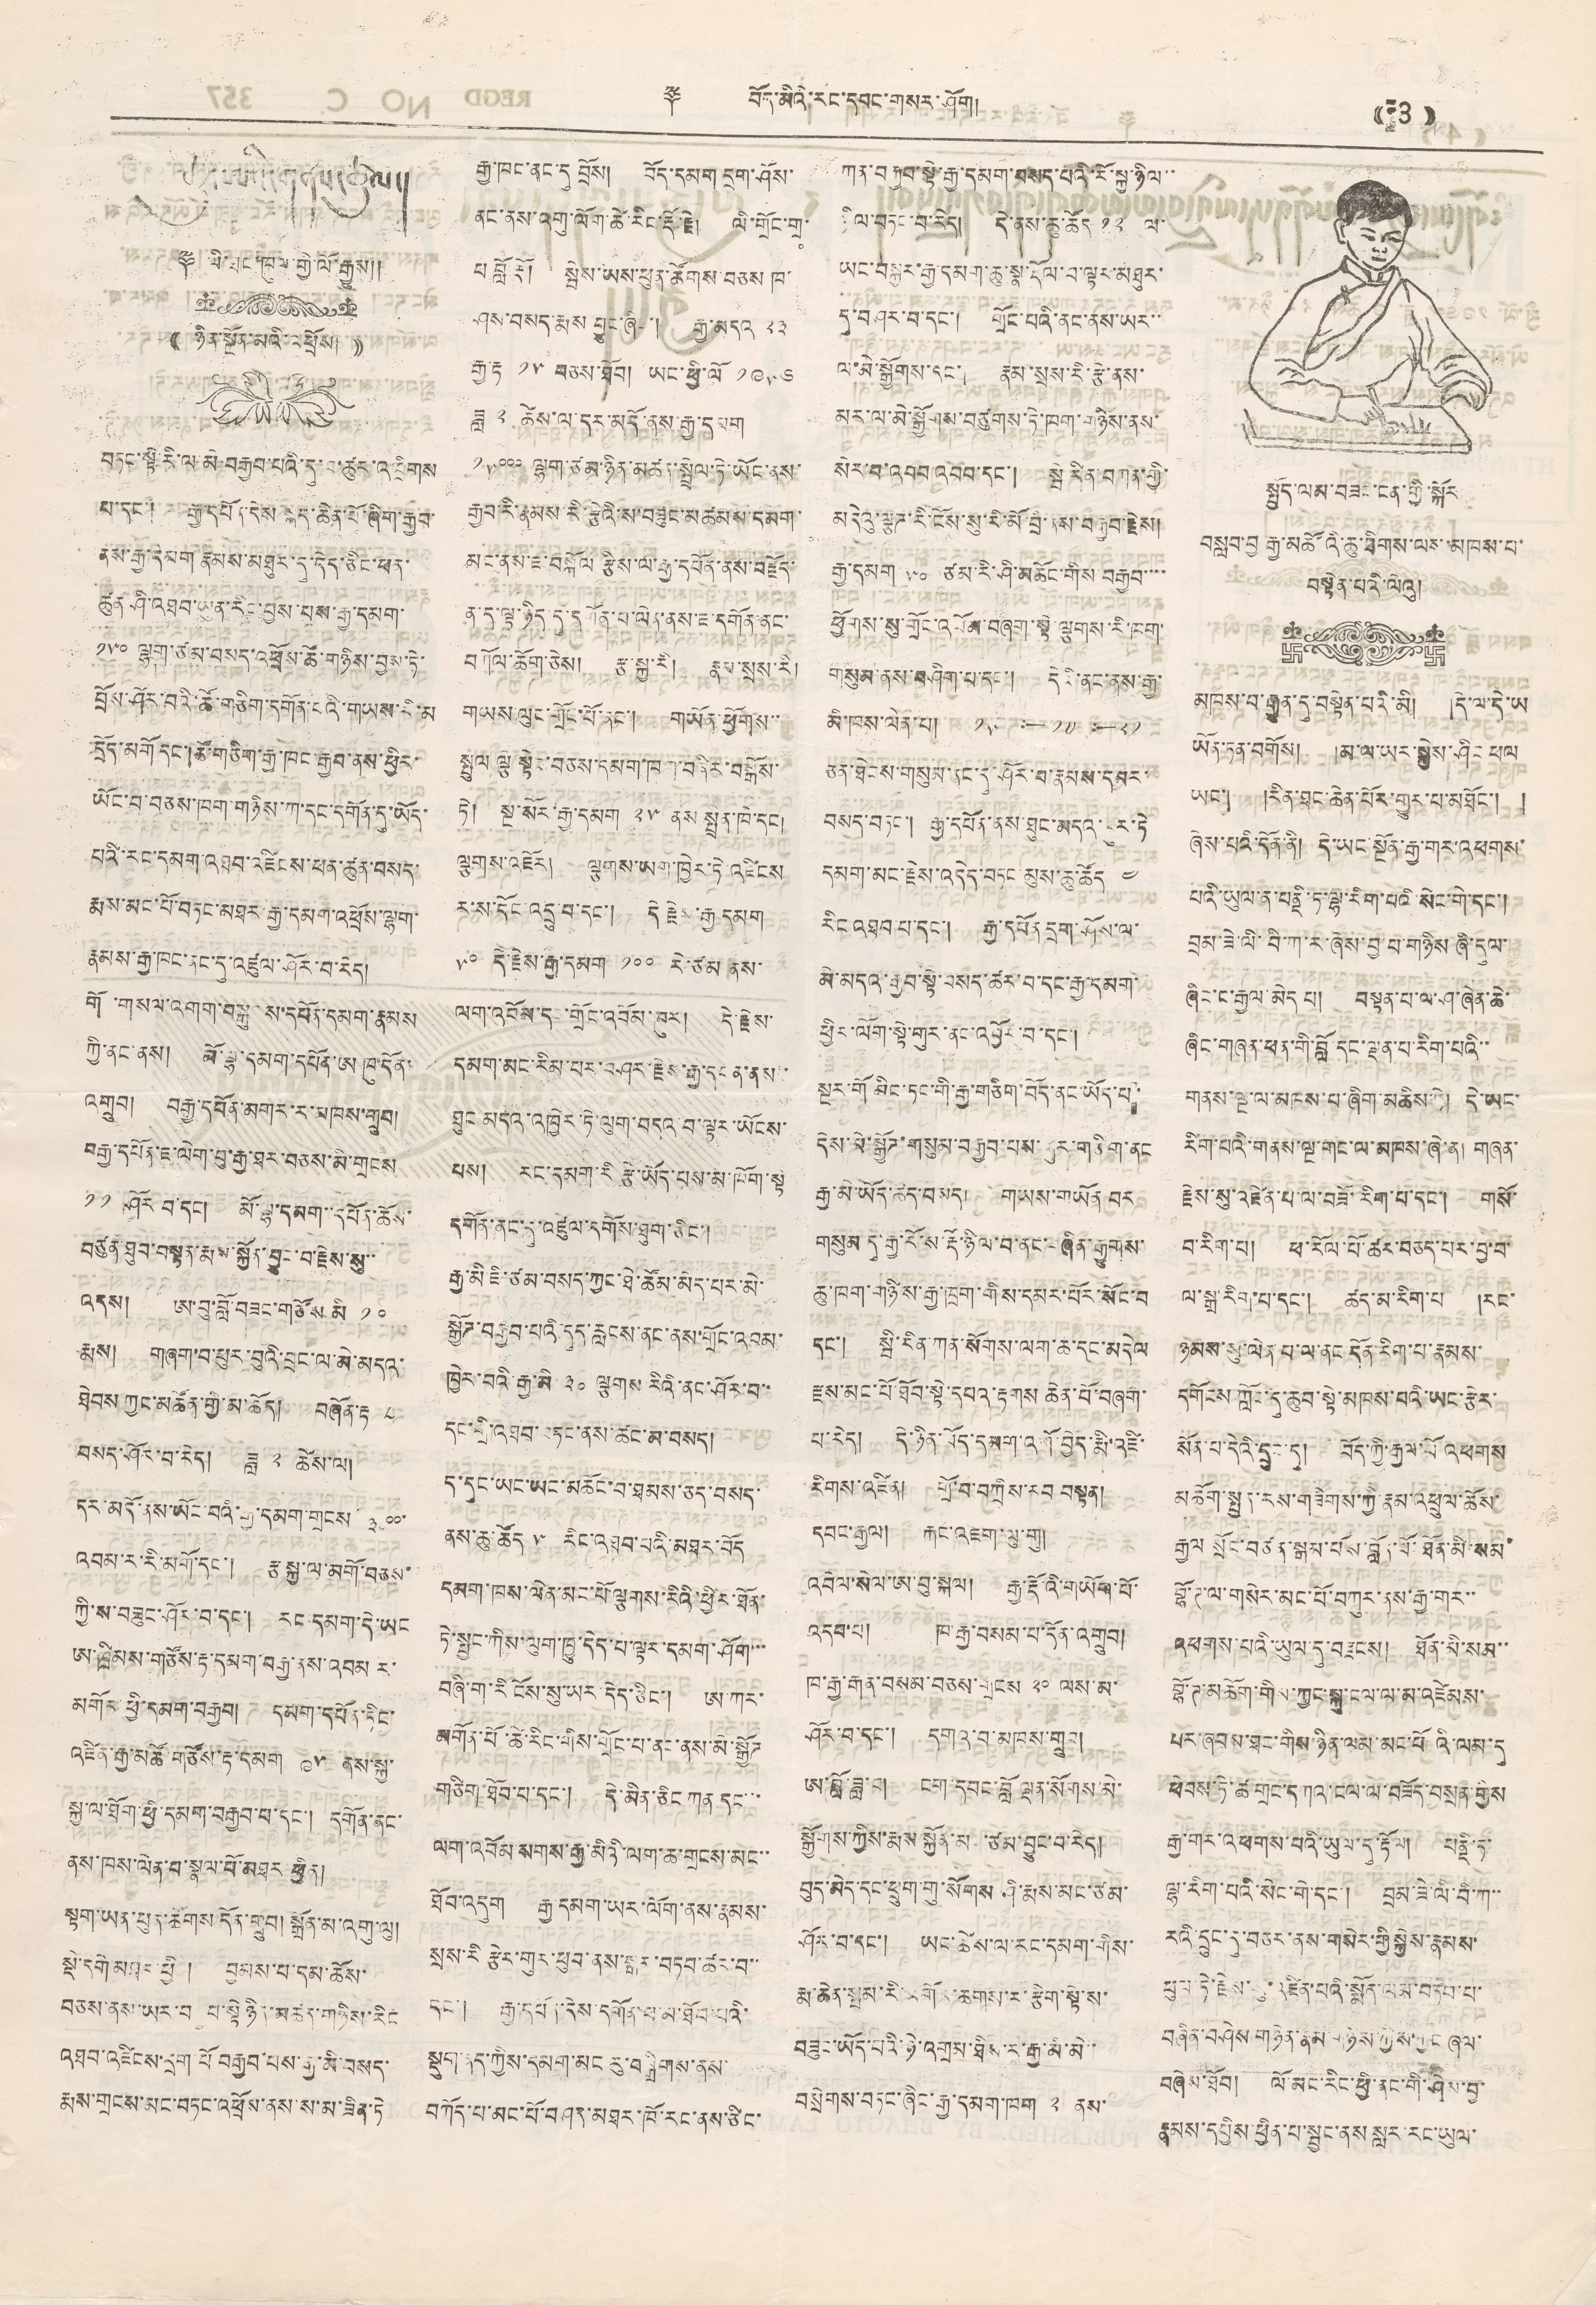༈ བོད་མིའི་རང་དབང་གསར་ཤོག།། (( 3 ))
ཆུ་ཨའི་གནས་ཚུལ།
༈ ལི་ཐང་ཁུལ་གྱི་ལོ་རྒྱུས།།
(( ཉིན་སྔོན་མའི་འཕྲོས། ))
བཏང་སྟེ་རི་ལ་མེ་བརྒྱབ་པའི་དུ་བ་ཚུར་འཁྲིགས
པ་དང་། རྒྱ་དཔོན་དེས་སྐད་ཆེན་པོ་ཞིག་རྒྱབ་
ནས་རྒྱ་དམག་རྣམས་མཐུར་དུ་དེད་ཅིང་ཕན་
ཚུན་ཤི་འཐབ་ཡུན་རིང་བྱས་པས་རྒྱ་དམག་
༡༥༠ ལྷག་ཙམ་བསད་འཕྲོས་ཚེ་གཉིས་བྱས་ཏེ་
བྲོས་ཤོར་བའི་ཚོ་གཅིག་དགོན་ངའི་གཡས་རི་མ
དྲོད་མགོ དང་།ཚོ་གཅིག་རྒྱ་ཁང་རྒྱབ་ནས་ཕྱིར་
ཡོང་བ་བཅས་ཁག་གཉིས་ཀ་དང་དགོན་དུ་ཡོད་
པའི་རང་དམག་འཐབ་འཛིངས་ཕན་ཚུན་བསད་
རྨས་མང་པོ་བཏང་མཐར་རྒྱ་དམག་འཕྲོས་ལྷག་
རྣམས་རྒྱ་ཁང་ནང་དུ་འཛུལ་ཤོར་བ་རེད།
གོ ་གསལ་འགག་བསྒུངས་དཔོན་དམག་རྣམས
ཀྱི་ནང་ནས། མོ་ལྷ་དམག་དཔོན་ཨ ཁུ་དོན་
འགྲུབ། བརྒྱ་དཔོན་མགར་ར་མཁས་གྲུབ།
བརྒྱ་དཔོན་ཇ་ལེག་བུ་རྒྱ་ཐར་བཅས་མི་གྲངས
༡༡ ཤོར བ་དང་། མོ་ལྷ་དམག་་དཔོན་ཆོས་
བཙུན་ཐུབ་བསྟན་རྨས་སྐྱོན་བྱུང་བ་རྗེས་སུ་་
འདས། ཨ་བུ་བློ་བཟང་གཙོས་མི ༡༠
རྨས། གཞག་བ་ཕུར་བུའི་བྲང་ལ་མེ་མདའ་
ཐེབས་ཀྱང་མཚོན་གྱི་མ་ཆོད། བཞོན་རྟ ༨
བསད་ཤོར་བ་རེད། ཟླ ༢ ཚེས་ལ།
དར་མདོ་ནས་ཡོང་བའི་རྒྱ་དམག་གྲངས་ ༣༠༠༠་
འབམ་ར་རི་མགོ་དང་། རྩ་སྐྱ་ལ་མགོ་བཅས་
ཀྱི་ས་བཟུང་ཤོར་བ་དང་། རང དམག་དེ་ཡང
ཨ་ཁྲིམས་གཙོས་རྟ་དམག་བརྒྱ་ནས་འབམ ར་
མགོར་ཕྱི་དམག་བརྒྱབ། དམག་དཔོན་ཏིང་
འཛིན་རྒྱ་མཚོ་གཙོས་རྟ་དམག ༩༥ ནས་སྐྱ་
སྐྱ་ལ་ཐོག་ཕྱི་དམག་བརྒྱབ་པ་དང་། དགོན་ནང་
ནས་ཁས་ལེན་བ་སྣལ་བོ་མཐར་ཕྱིན།
སྟག་ཡན་ཕུད་ཚོགས་དོན་གྲུབ། སྒྲོན་མ་འགུ་ལུ།
སྡེ་དགེ་མཐར་ཕྱི། བྱམས་པ་དམ་ཆོས་
བཅས་ནས་ཡར་བ བ་སྟེ་ཉིན་མཚན་གཉིས་རིང
འཐབ་འཛིངས་དྲག་པོ བརྒྱབ་པས་རྒྱ་མི་བསད་
རྨས་གྲངས་མང་བཏང་འཕྲོས་ནས་ས་མ་ཟིན་ཏེ
རྒྱ་ཁང་ནང་དུ བྲོས། བོད་དམག དྲག་ཤོས་
ནང་ནས་འགུ་ལོག་ཚེ་རིང་རྡོ་རྗེ། ལི་གྲོང་གྲ་
པ བློ རྡོ། སྦེས་ཡས་ཕུན་ཚོགས བཅས ཁ་
ཤས་བསད་རྨས བྱུང་ཞིང་། རྒྱ་མདའ་ ༢༣
རྒྱ་རྟ་ ༡༥ བཅས་ཐོབ། ཡང་ཕྱི་ལོ ༡༩༥༦
ཟླ ༢ ཚེས་ལ་དར་མདོ་ནས་རྒྱ་དམག
༡༥༠༠༠ ལྷག་ཙམ་ཉིན་མཚན་སྤྲེལ་ཏེ་ཡོང་ནས་
རྒྱབ་རི་རྣམས་རི་རྩེའི་ས་བཟུང་མཚམས་དམག་
མང་ནས་ཇ་བསྐོལ རྩིས་ལ་རྒྱ་དཔོན་ནས་བརྗོད་
ན་ད་ལྟ་ཉིད་དུ་དགོན་པ་ལེན་ནས་ཇ་དགོན་ནང་
བཀོལ་ཆོག་ཅེས། རྩ་སྐྱ་རི། རྣམ་སྲས་རི།
གཡས་ལུང་གྲོང་པོ་ནང། གྱོན་ཕྱོགས་་་
སྤུལ ལྕེ་སྟེར་བཅས་དམག་ཁག་བཞིར་བསྒོས་
ཏེ། སྔ་སོར་རྒྱ་དམག ༢༥ ནས་སྤྲིན་ཁེ་དང།
ལྕགས་འཇོར། ལྕགས་ཡག་ཁྱེར་ཏེ འཛིངས
ར་ས་དོང་འདྲུ་བ་དང་། དེ རྗེས་རྒྱ དམག
༥༠ དེ་རྗེས་རྒྱ་དམག ༡༠༠ རེ་ཙམ ནས་
ལག་འབོམ་དང་གྲོང་འབོམ་ཁུར། དེ་རྗེས་
དམག་མང་རིམ་པར་བཤར་རྗེས་རྒྱ་དང་ན་ནས་
ཐུང་མདའ་འཁྱེར་ཏེ་ལུག་བདའ བ་ལྟར་ཡོངས་
པས། རང་དམག་རི རྩེ་ཡོད་པས་མ་ཁོག་སྟེ
དགོན་ནང་དུ་འཛུལ་དགོས་ཐུག་ཅིང་།
རྒྱ་མི་ཇི་ཙམ་བསད་ཀྱང་ཐེ་ཚེམ་མེད་པར་མེ་
སྒྱོཌ་བརྒྱབ་པའི་དུད་རླངས་ནང་ནས་གྲོང་འབམ་
ཁྱེར་བའི་རྒྱ་མི ༣༠ ལྕགས་རིའི་ནང་ཤོར་བ་་
དང་གྲི་འཐབ་བཏང་ནས་ཚང་མ་བསད།
ད་དུང་ཡང་ཡང་མཆོང་བ་ཐམས་ཅད་བསད་
ནས་ཆུ་ཚོད་ ༥ རིང་འཐབ་པའི་མཐར་བོད
དམག་ཁས་ལེན་མང་པོ་ལྕགས་རིའི་ཕྱིར་ཐོན་
ཏེ་སྤྱང་ཀིས་ལུག་ཁྱུ་དེད་པ་ལྟར་དམག་ཤོག་་
བཞི་ག་རི ངོས་སུ་ཡར་དེད་ཅིང་། ཨ་ཀར་
མགོན་པོ་ཚེ་རིང་གིས་གྲོང་པ་ནང་ནས་མ་སྒྱོཌ
གཅིག་ཐོབ་པ་དང་། དེ་མིན་ཅིང ཀན་དང་་་
ལག་འབོམ་སགས་རྒྱ་མིའི་ལག་ཆ་གྲངས་མང་་
ཐོབ་འདུག རྒྱ་དམག་ཡར་ལོག་ནས་རྣམས་
སྲས་རི རྩེར་གུར་ཕུབ་ནས་སྒར་བཏབ་ཚར་བ་་
དང་། རྒྱ་དཔོན་དེས་དགོན་པ་མ་ཐོབ་པའི་
སྡུག་ནད་ཀྱིས་དམག་མང རུ་བསྒྲིགས་ནས་
བཀོད་པ་མང་པོ་བཤད་མཐར་ཁོ་རང་ནས་ཙིང་
ཀན་བརྒྱབ་སྟེ་རྒྱ་དམག་བསད་པའི་རོ་སྐྱ་ཉིལ་་
ཉིལ་བཏང་བ་རེད། དེ་ནས་ཆུ་ཚོད་ ༡༢ ལ་
ཡང་བསྐྱར་རྒྱ་དམག་ཆུ་སྣ་རྡོལ་བ་ལྟར་མཐུར་
དུ་བཤར་བ་དང་། གྲོང་པའི་ནང་ནས་ཡར་་
ལ་མེ་སྒྱོགས་དང་། རྣམ་སྲས་རི་རྩེ་ནས་
མར་ལ་མེ་སྒྱོགས་བཙུགས་ཏེ་ཁག་གཉིས་ནས་
སེར་བ་འབབ་འབབ་དང་། སྦེ་རིན་བཀན་གྱི་
མདེའུ་ལྕཌ་རི་ངོས་སུ་རི་མི་བྲི་ནས་བརྒྱབ་རྗེས།
རྒྱ་དམག ༥༠ ཙམ་རི་ཤི་མཆོང་གིས་བརྒྱབ་་་་
ཕྱོགས་སུ་གྲོང་འབོམ་བཞག་སྟེ་ལྕགས་རི་ཁག་
གསུམ་ནས་བཤིག་པ་དང་། དེའི་ནང་ནས་རྒྱ་
་མི་ཁས་ལེན་པ། ༡༥ :—༡༧ :— ༨༡
ཅན་ཐེངས་གསུམ་ནང་དུ་ཤོར་བ་རྣམས་དམར་
བསད་བཏང་། རྒྱ་དཔོན་ནས་ཐུང་མདའ་དུར་ཏེ་
དམག་མང་རྗེས་འདེད་བཏང་མུས་ཆུ་ཚོད་ ༤
རིང་འཐབ་པ་དང་། རྒྱ་དཔོན་དྲག་ཤོས་ལ་
མེ་མདའ་རྒྱབ་སྟེ་བསད་ཚར་བ་དང་རྒྱ་དམག་
ཕྱིར་ལོག་སྟེ་གུར་ནང་འབྱོར་བ་དང་།
སྔར་གོ མིང་ཏང་གི་རྒྱ་གཅིག་བོད་ནང་ཡོད་པ་
དེས་མེ་སྒྱོཌ་གསུམ་བརྒྱབ་པས་གུར་གཅིག་ནང
རྒྱ་མི་ཡོད་ཚད་བསད། གཡས་གཡོན བར
གསུམ དུ་རྒྱ་རོ་ས་རྡོ་ཉིལ་བ་ནང་བཞིན་རྒྱུགས་
ཆུ་ཁག་གཉིས་རྒྱ་ཁྲག་གིས་དམར་པོར་སོང་བ
དང་། སྦི་རིན་ཀན་སོགས་ལག་ཆ་དང་མདེལ
རྫས་མང་པོ་ཐོབ་སྟེ་དཔའ་རྟགས ཆེན་པོ་བཞག་
པ་རེད། དེ་ཉིད་བོད་དམག་འགོ་བྱེད་རྨི་འཛི་
རིགས་འཛིན། གྲོ་བ་བཀྲིས་རབ བསྟན།
དབང་རྒྱལ། རྐང་འཇག་ལུ་གུ།
འབེལ་སེལ་ཨ་བུ་སྐལ། རྒྱ་རྡོ་འི་གཡོག་པོ་
འདབ་པ། ཁ་རྒྱ་བསམ་པ་དོན་འགྲུབ།
ཁ་རྒྱ་རྒན་བསམ་བཅས་གྲངས ༢༠ ལས་མ་
ཤོར་བ་དང་། དགའ་བ་མཁས་གྲུབ།
ཨ་བློ་ཟླ་བ། ངག་དབང་བློ ལྡན་སོགས་མེ་
སྒྱོགས་ཀྱིས་རྨས་སྐྱོན་མ ་ཙམ་བྱུང་བ་རེད།
བུད་མེད་དང་ཕྲུག་གུ་སོགས ཤི་རྨས་མང་ཙམ་
ཤོར་བ་དང་། ཡང་ཚེས་ལ་རང་དམག་གིས་
རྨ་ཆེན་སྦམ་རི་མགོར་ཆགས་ར་རྩིག་སྟེ་ས་
བཟུང་ཡོད་པའི་ཉེ་འགྲམ་ཐིས་ར་རྒྱ་མི་མེ་
བསྲེགས་བཏང་ཞིང་རྒྱ་དམག་ཁག་ ༢ ནས་
སྤྱོད་ལམ་བཟང་ངན་གྱི་སྐོར
བསླབ་བྱ རྒྱ་མཚོའི་ཆུ་ཐིགས་ལས་མཁས་པ་
བསྟེན་པའི་ལེའུ།
མཁས་པ་རྒྱུན་དུ་བསྟེན་པའི་མི། །དེ་ལ་དེ་ཡ
ཡོན་ཏན་བགོས། །མ་ལ་ཡར་སྐྱེས་ཤིང ཕལ
ཡང་། །རིན་ཐང་ཆེན་པོར་གྱུར་པ་མཐོང་། །
ཞེས་པའི་དོན་ནི། དེ་ཡང་སྔོན་རྒྱ་གར་འཕགས་
པའི་ཡུལ་ན་པནྡི་ཏ་ལྷ་རིག་པའི་སེང་གེ་དང་།
བྲམ་ཟེ་ལི་བི་ཀ་ར་ཞེས་བྱ་པ་གཉིས ཞི་དུལ་
ཞིང་ང་རྒྱལ་མེད་པ། བསྟན་པ་ལ་ཤ་ཞེན་ཆེ་
ཞིང་གཞན་ཕན་གི་བློ་དང་ལྡན་པ་རིག་པའི་་
གནས་ལྔ་ལ་མཁས་པ་ཞིག་མཆིས་སྟེ། དེ་ཡང་
རིག་པའི་གནས་ལྔ་གང་ལ་མཁས་ཞེ་ན། གཞན་
རྗེས་སུ་འཛིན་པ་ལ་བཟོ་རིག་པ་དང་། གསོ་
བ་རིག་པ། ཕ་རོལ་པོ་ཚར་བཅད་པར་བྱ་བ་
ལ་སྒྲ་རིག་པ་དང་། ཚད་མ་རིག་པ །རང་
ཉམས་སུ་ལེན་པ་ལ་ནང་དོན་རིག་པ་རྣམས་
དགོངས་ཀློང་དུ་ཆུབ་སྟེ་མཁས་པའི་ཡང་རྩེར་
སོན་པ་དེའི་དྲུང་དུ། བོད་ཀྱི་རྒྱལ་པོ་འཕགས
མཆོག་སྤྱན་རས་གཟིགས་ཀྱི་རྣམ་འཕྲུལ་ཆོས་
རྒྱལ སྲོང་བཙན་སྒམ་པོས་བློན་པོ་ཐོན་མི་སམ
བྷོ་ཊ་ལ་གསེར་མང་པོ་བཀུར་ནས་རྒྱ་གར་་
འཕགས་པའི་ཡུལ་དུ་བརྫངས། ཐོན་མི་སམ་་
བྷོ་ཊ་མཆོག་གིས་ཀྱང་སྐུ་ངལ་ལ་མ་འཛེམས་
པར་ཞབས་ཐང་གིས་ཉིན་ལམ་མང་པོ འི་ལམ་དུ
ཕེབས་ཏེ་ཚ་གྲང་དཀའ་ངལ་ལ་བཟོད་བསྲན་གྱིས
རྒྱ་གར་འཕགས་པའི་ཡུལ་དུ་རྟོལ། པནྡི་ཏ་
ལྷ་རིག་པའི་སེང་གེ་དང་། བྲམ་ཟེ་ལི་བོ་ཀ་་
རའི་དྲུང་དུ་བཅར་ནས་གསེར་གྱི་སྐྱེས་རྣམས་
ཕུལ་ཏེ་རྗེས་སུ་འཛིན་པའི་སྨོན་ལམ་བཏབ་པ་
བཞིན་བཤེས་གཉེན་རྣམ་གཉིས་ཀྱིས་ཀྱང་ཞལ་
བཞེས་ཐོབ། ལོ་མང་རིང་ཕྱི་ནང་གི་ཤེས་བྱ་
རྣམས་དཔྱིས་ཕྱིན་པ་སྦྱང་ནས་སླར་རང་ཡུལ་
